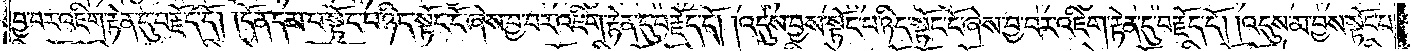བྱ་བར་འཇིག་རྟེན་དུ་བརྗོད་དོ། །དོན་དམ་པ་སྟོང་པ་ཉིད་སྟོང་ངོ་ཞེས་བྱ་བར་འཇིག་རྟེན་དུ་བརྗོད་དོ། །འདུས་བྱས་སྟོང་པ་ཉིད་སྟོང་ངོ་ཞེས་བྱ་བར་འཇིག་རྟེན་དུ་བརྗོད་དོ། །འདུས་མ་བྱས་སྟོང་པ་
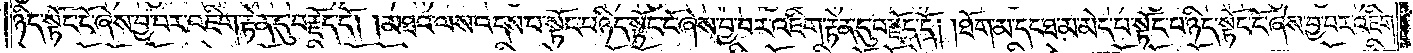ཉིད་སྟོང་ངོ་ཞེས་བྱ་བར་འཇིག་རྟེན་དུ་བརྗོད་དོ། །མཐའ་ལས་འདས་པ་སྟོང་པ་ཉིད་སྟོང་ངོ་ཞེས་བྱ་བར་འཇིག་རྟེན་དུ་བརྗོད་དོ། །ཐོག་མ་དང་ཐ་མ་མེད་པ་སྟོང་པ་ཉིད་སྟོང་ངོ་ཞེས་བྱ་བར་འཇིག་
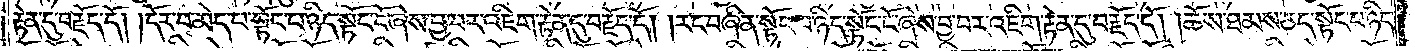རྟེན་དུ་བརྗོད་དོ། །དོར་བ་མེད་པ་སྟོང་པ་ཉིད་སྟོང་ངོ་ཞེས་བྱ་བར་འཇིག་རྟེན་དུ་བརྗོད་དོ། །རང་བཞིན་སྟོང་པ་ཉིད་སྟོང་ངོ་ཞེས་བྱ་བར་འཇིག་རྟེན་དུ་བརྗོད་དོ། །ཆོས་ཐམས་ཅད་སྟོང་པ་ཉིད་
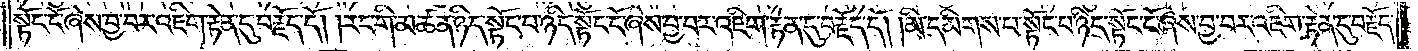སྟོང་ངོ་ཞེས་བྱ་བར་འཇིག་རྟེན་དུ་བརྗོད་དོ། །རང་གི་མཚན་ཉིད་སྟོང་པ་ཉིད་སྟོང་ངོ་ཞེས་བྱ་བར་འཇིག་རྟེན་དུ་བརྗོད་དོ། །མི་དམིགས་པ་སྟོང་པ་ཉིད་སྟོང་ངོ་ཞེས་བྱ་བར་འཇིག་རྟེན་དུ་བརྗོད་
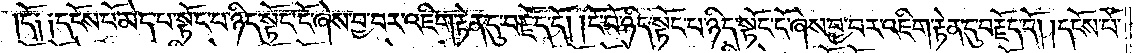དོ༑ ༑དངོས་པོ་མེད་པ་སྟོང་པ་ཉིད་སྟོང་ངོ་ཞེས་བྱ་བར་འཇིག་རྟེན་དུ་བརྗོད་དོ། །ངོ་བོ་ཉིད་སྟོང་པ་ཉིད་སྟོང་ངོ་ཞེས་བྱ་བར་འཇིག་རྟེན་དུ་བརྗོད་དོ། །དངོས་པོ་
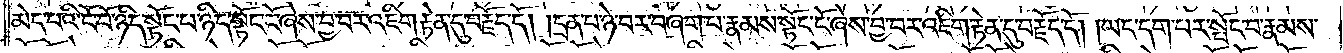མེད་པའི་ངོ་བོ་ཉིད་སྟོང་པ་ཉིད་སྟོང་ངོ་ཞེས་བྱ་བར་འཇིག་རྟེན་དུ་བརྗོད་དོ། །དྲན་པ་ཉེ་བར་བཞག་པ་རྣམས་སྟོང་ངོ་ཞེས་བྱ་བར་འཇིག་རྟེན་དུ་བརྗོད་དོ། །ཡང་དག་པར་སྤོང་བ་རྣམས་
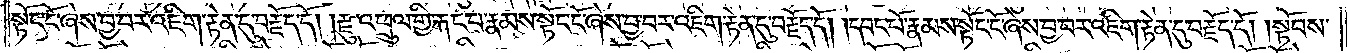སྟོང་ངོ་ཞེས་བྱ་བར་འཇིག་རྟེན་དུ་བརྗོད་དོ། །རྫུ་འཕྲུལ་གྱི་རྐང་པ་རྣམས་སྟོང་ངོ་ཞེས་བྱ་བར་འཇིག་རྟེན་དུ་བརྗོད་དོ། །དབང་པོ་རྣམས་སྟོང་ངོ་ཞེས་བྱ་བར་འཇིག་རྟེན་དུ་བརྗོད་དོ། །སྟོབས་
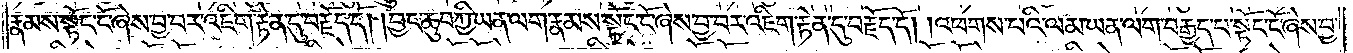རྣམས་སྟོང་ངོ་ཞེས་བྱ་བར་འཇིག་རྟེན་དུ་བརྗོད་དོ། །བྱང་ཆུབ་ཀྱི་ཡན་ལག་རྣམས་སྟོང་ངོ་ཞེས་བྱ་བར་འཇིག་རྟེན་དུ་བརྗོད་དོ། །འཕགས་པའི་ལམ་ཡན་ལག་བརྒྱད་པ་སྟོང་ངོ་ཞེས་བྱ་
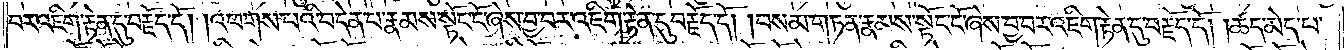བར་འཇིག་རྟེན་དུ་བརྗོད་དོ། །འཕགས་པའི་བདེན་པ་རྣམས་སྟོང་ངོ་ཞེས་བྱ་བར་འཇིག་རྟེན་དུ་བརྗོད་དོ། །བསམ་གཏན་རྣམས་སྟོང་ངོ་ཞེས་བྱ་བར་འཇིག་རྟེན་དུ་བརྗོད་དོ། །ཚད་མེད་པ་
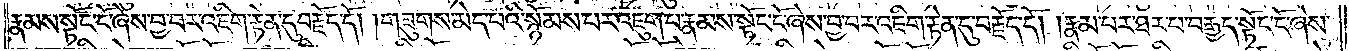རྣམས་སྟོང་ངོ་ཞེས་བྱ་བར་འཇིག་རྟེན་དུ་བརྗོད་དོ། །གཟུགས་མེད་པའི་སྙོམས་པར་འཇུག་པ་རྣམས་སྟོང་ངོ་ཞེས་བྱ་བར་འཇིག་རྟེན་དུ་བརྗོད་དོ། །རྣམ་པར་ཐར་པ་བརྒྱད་སྟོང་ངོ་ཞེས་
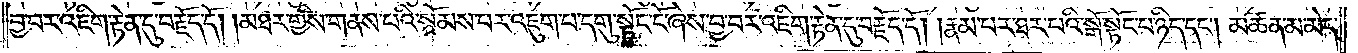བྱ་བར་འཇིག་རྟེན་དུ་བརྗོད་དོ། །མཐར་གྱིས་གནས་པའི་སྙོམས་པར་འཇུག་པ་དགུ་སྟོང་ངོ་ཞེས་བྱ་བར་འཇིག་རྟེན་དུ་བརྗོད་དོ། །རྣམ་པར་ཐར་པའི་སྒོ་སྟོང་པ་ཉིད་དང༌། མཚན་མ་མེད་
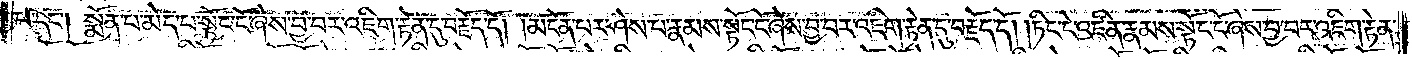པ་དང༌། སྨོན་པ་མེད་པ་སྟོང་ངོ་ཞེས་བྱ་བར་འཇིག་རྟེན་དུ་བརྗོད་དོ། །མངོན་པར་ཤེས་པ་རྣམས་སྟོང་ངོ་ཞེས་བྱ་བར་འཇིག་རྟེན་དུ་བརྗོད་དོ། །ཏིང་ངེ་འཛིན་རྣམས་སྟོང་ངོ་ཞེས་བྱ་བར་འཇིག་རྟེན་
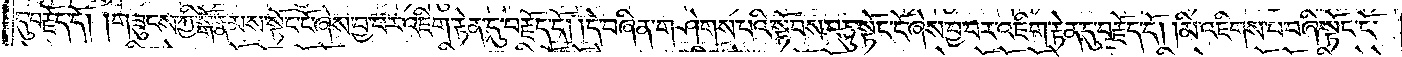དུ་བརྗོད་དོ། །གཟུངས་ཀྱི་སྒོ་རྣམས་སྟོང་ངོ་ཞེས་བྱ་བར་འཇིག་རྟེན་དུ་བརྗོད་དོ། །དེ་བཞིན་གཤེགས་པའི་སྟོབས་བཅུ་སྟོང་ངོ་ཞེས་བྱ་བར་འཇིག་རྟེན་དུ་བརྗོད་དོ། །མི་འཇིགས་པ་བཞི་སྟོང་ངོ་
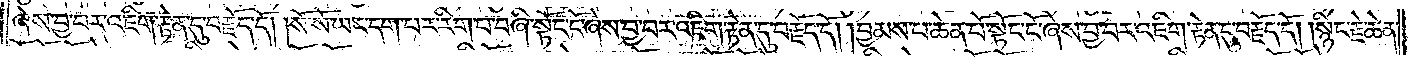ཞེས་བྱ་བར་འཇིག་རྟེན་དུ་བརྗོད་དོ། །སོ་སོ་ཡང་དག་པར་རིག་པ་བཞི་སྟོང་ངོ་ཞེས་བྱ་བར་འཇིག་རྟེན་དུ་བརྗོད་དོ། །བྱམས་པ་ཆེན་པོ་སྟོང་ངོ་ཞེས་བྱ་བར་འཇིག་རྟེན་དུ་བརྗོད་དོ། །སྙིང་རྗེ་ཆེན་
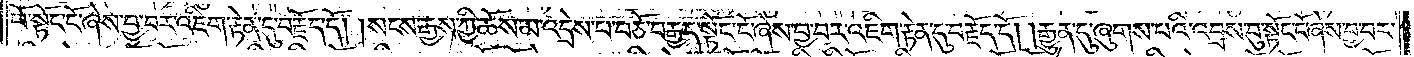པོ་སྟོང་ངོ་ཞེས་བྱ་བར་འཇིག་རྟེན་དུ་བརྗོད་དོ། །སངས་རྒྱས་ཀྱི་ཆོས་མ་འདྲེས་པ་བཅོ་བརྒྱད་སྟོང་ངོ་ཞེས་བྱ་བར་འཇིག་རྟེན་དུ་བརྗོད་དོ། །རྒྱུན་དུ་ཞུགས་པའི་འབྲས་བུ་སྟོང་ངོ་ཞེས་བྱ་བར་
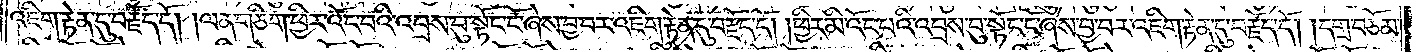འཇིག་རྟེན་དུ་བརྗོད་དོ། །ལན་གཅིག་ཕྱིར་འོང་བའི་འབྲས་བུ་སྟོང་ངོ་ཞེས་བྱ་བར་འཇིག་རྟེན་དུ་བརྗོད་དོ། །ཕྱིར་མི་འོང་པའི་འབྲས་བུ་སྟོང་ངོ་ཞེས་བྱ་བར་འཇིག་རྟེན་དུ་བརྗོད་དོ། །དགྲ་བཅོམ་
